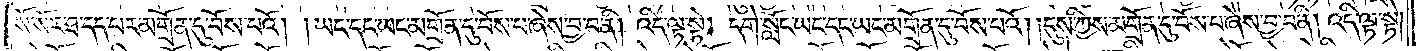སོ་སོར་ཐ་དད་པར་མགྲོན་དུ་བོས་པའོ། །ཡང་དང་ཡང་མགྲོན་དུ་བོས་པ་ཞེས་བྱ་བ་ནི། འདི་ལྟ་སྟེ། དགེ་སློང་ཡང་དང་ཡང་མགྲོན་དུ་བོས་པའོ། །དུས་ཀྱིས་མགྲོན་དུ་བོས་པ་ཞེས་བྱ་བ་ནི། འདི་ལྟ་སྟེ།
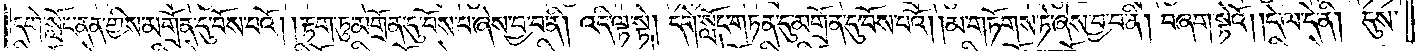དགེ་སློང་ནན་གྱིས་མགྲོན་དུ་བོས་པའོ། །རྟག་ཏུ་མགྲོན་དུ་བོས་པ་ཞེས་བྱ་བ་ནི། འདི་ལྟ་སྟེ། དགེ་སློང་གཏན་དུ་མགྲོན་དུ་བོས་པའོ། །མ་གཏོགས་ཏེ་ཞེས་བྱ་བ་ནི། བཞག་སྟེའོ། །དེ་ལ་དེ་ནི། དུས་
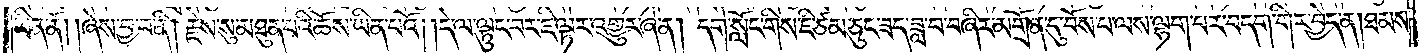ཡིན་ནོ། །ཞེས་བྱ་བ་ནི། རྗེས་སུ་མཐུན་པའི་ཆོས་ཡིན་པའོ། །དེ་ལ་ལྟུང་བར་ཇི་ལྟར་འགྱུར་ཞེ་ན། དགེ་སློང་གིས་ཇི་ཙམ་ཅུང་ཟད་ཟླ་བ་བཞིར་མགྲོན་དུ་བོས་པ་ལས་ལྷག་པར་བདག་གིར་བྱེད་ན། ཐམས་
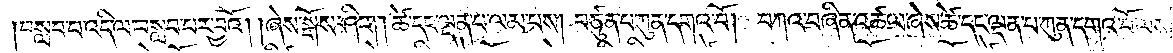བསླབ་པ་འདི་ལ་བསླབ་པར་བྱའོ། །ཞེས་སྒོས་ཤིག །ཚེ་དང་ལྡན་པ་ལམ་པས། བཙུན་པ་ཀུན་དགའ་བོ། བཀའ་བཞིན་འཚལ་ཞེས་ཚེ་དང་ལྡན་པ་ཀུན་དགའ་བོས་ལས་
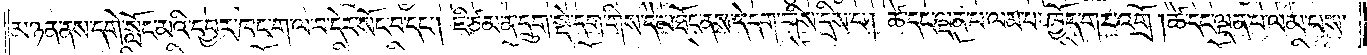མཉན་རྣམས་དགེ་སློང་མའི་དབྱར་ཁང་ག་ལ་བ་དེར་སོང་བ་དང༌། ཇི་ཙམ་ན་དྲུག་སྡེ་དག་གིས་དེ་མཐོང་ནས་དེ་དག་གིས་དྲིས་པ། ཚེ་དང་ལྡན་པ་ལམ་པ། ཁྱོད་གར་འགྲོ་།ཚེ་དང་ལྡན་པ་ལམ་པས་
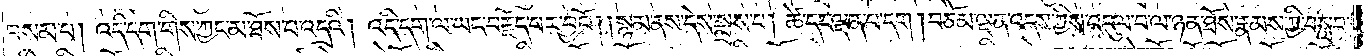བསམ་པ། འདི་དག་གིས་ཀྱང་མ་ཐོས་པ་འདྲའི། འདི་དག་ལ་ཡང་བརྗོད་པར་བྱའོ། །སྙམ་ནས་དེས་སྨྲས་པ། ཚེ་དང་ལྡན་པ་དག །བཅོམ་ལྡན་འདས་ཀྱིས་འདུལ་བ་ལ་ཉན་ཐོས་རྣམས་ཀྱི་བསླབ་
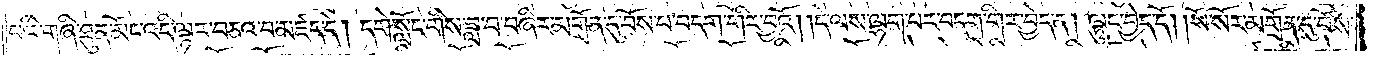པའི་གཞི་ཐུན་མོང་འདི་ལྟར་བཅའ་བ་མཛད་དེ། དགེ་སློང་གིས་ཟླ་བ་བཞིར་མགྲོན་དུ་བོས་པ་བདག་གིར་བྱའོ། །དེ་ལས་ལྷག་པར་བདག་གིར་བྱེད་ན། ལྟུང་བྱེད་དོ། །སོ་སོར་མགྲོན་དུ་བོས་
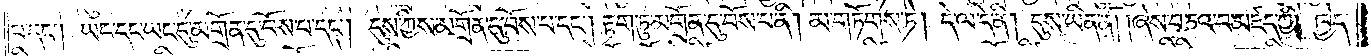པ་དང༌། ཡང་དང་ཡང་དུ་མགྲོན་དུ་བོས་པ་དང༌། དུས་ཀྱིས་མགྲོན་དུ་བོས་པ་དང༌། རྟག་ཏུ་མགྲོན་དུ་བོས་པ་ནི། མ་གཏོགས་ཏེ། དེ་ལ་དེ་ནི། དུས་ཡིན་ནོ། །ཞེས་བཅའ་བ་མཛད་ཀྱི། ཁྱེད་
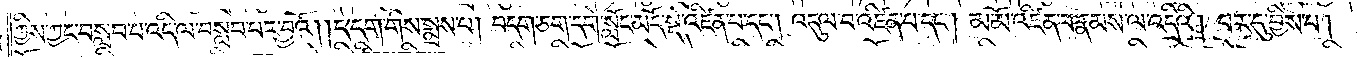ཀྱིས་ཀྱང་བསླབ་པ་འདི་ལ་བསླབ་པར་བྱའོ། །དེ་དག་གིས་སྨྲས་པ། བདག་ཅག་དགེ་སློང་མདོ་སྡེ་འཛིན་པ་དང༌། འདུལ་བ་འཛིན་པ་དང༌། མ་མོ་འཛིན་པ་རྣམས་ལ་འདྲིའི། བར་དུ་བྱིས་པ་།
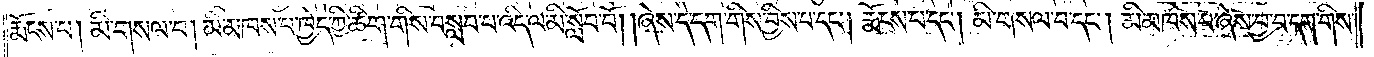རྨོངས་པ། མི་གསལ་བ། མི་མཁས་པ་ཁྱེད་ཀྱི་ཚིག་གིས་བསླབ་པ་འདི་ལ་མི་སློབ་བོ། །ཞེས་དེ་དག་གིས་བྱིས་པ་དང༌། རྨོངས་པ་དང༌། མི་གསལ་བ་དང༌། མི་མཁས་པ་ཞེས་བྱ་བ་དག་གིས་
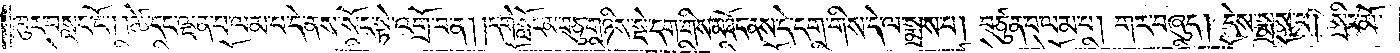ཁུར་བསླང་ངོ༌། །ཚེ་དང་ལྡན་པ་ལམ་པ་དེ་ནས་སོང་སྟེ་འགྲོ་བ་ན། །དགེ་སློང་མ་བཅུ་གཉིས་སྡེ་དག་གིས་མཐོང་ནས་དེ་དག་གིས་དེ་ལ་སྨྲས་པ། བཙུན་པ་ལམ་པ། གར་བཞུད། དེས་སྨྲས་པ། སྲིང་མོ་
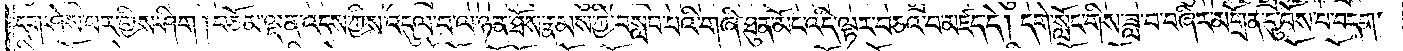དག་ཤེས་པར་གྱིས་ཤིག །བཅོམ་ལྡན་འདས་ཀྱིས་འདུལ་བ་ལ་ཉན་ཐོས་རྣམས་ཀྱི་བསླབ་པའི་གཞི་ཐུན་མོང་འདི་ལྟར་བཅའ་བ་མཛད་དེ། དགེ་སློང་གིས་ཟླ་བ་བཞིར་མགྲོན་དུ་བོས་པ་བདག་
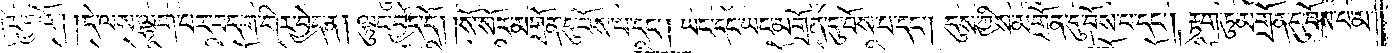གིར་བྱའོ། །དེ་ལས་ལྷག་པར་བདག་གིར་བྱེད་ན། ལྟུང་བྱེད་དོ། །སོ་སོར་མགྲོན་དུ་བོས་པ་དང༌། ཡང་དང་ཡང་མགྲོན་དུ་བོས་པ་དང༌། དུས་ཀྱིས་མགྲོན་དུ་བོས་པ་དང༌། རྟག་ཏུ་མགྲོན་དུ་བོས་པ་མ་
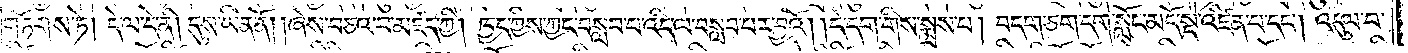གཏོགས་ཏེ། དེ་ལ་དེ་ནི། དུས་ཡིན་ནོ། །ཞེས་བཅའ་བ་མཛད་ཀྱི། ཁྱེད་ཀྱིས་ཀྱང་བསླབ་པ་འདི་ལ་བསླབ་པར་བྱའོ། །དེ་དག་གིས་སྨྲས་པ། བདག་ཅག་དགེ་སློང་མདོ་སྡེ་འཛིན་པ་དང༌། འདུལ་བ་
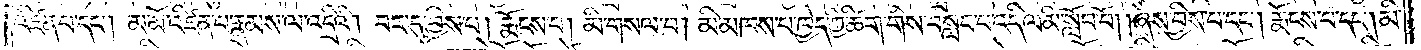འཛིན་པ་དང༌། མ་མོ་འཛིན་པ་རྣམས་ལ་འདྲིའི། བར་དུ་བྱིས་པ། རྨོངས་པ། མི་གསལ་བ། མི་མཁས་པ་ཁྱེད་ཀྱི་ཚིག་གིས་བསླབ་པ་འདི་ལ་མི་སློབ་བོ། །ཞེས་བྱིས་པ་དང༌། རྨོངས་པ་དང༌། མི་
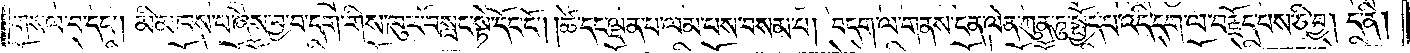གསལ་བ་དང༌། མི་མཁས་པ་ཞེས་བྱ་བ་དག་གིས་ཁུར་བསླང་སྟེ་དོང་ངོ༌། །ཚེ་དང་ལྡན་པ་ལམ་པས་བསམ་པ། བདག་ལ་གནས་ངན་ལེན་ཀུན་ཏུ་སྤྱོད་པ་འདི་དག་ལ་བརྗོད་པས་ཅི་བྱ། ད་ནི།
